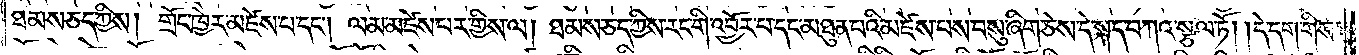ཐམས་ཅད་ཀྱིས། གྲོང་ཁྱེར་མཛེས་པ་དང༌། ལམ་མཛེས་པར་གྱིས་ལ། ཐམས་ཅད་ཀྱིས་རང་གི་འབྱོར་བ་དང་མཐུན་པའི་མཛེས་པས་བསུ་ཞིག་ཅེས་དེ་སྐད་བཀའ་སྩལ་ཏོ། །དེ་དག་གིས་
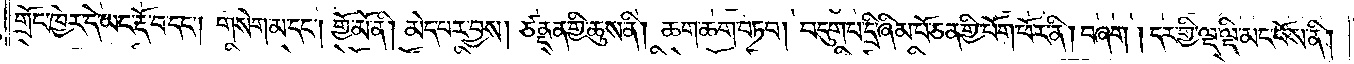གྲོང་ཁྱེར་དེ་ཡང་རྡོ་བ་དང༌། གསེག་མ་དང༌། གྱོ་མོ་ནི། མེད་པར་བྱས། ཙནྡན་གྱི་ཆུས་ནི། ཆག་ཆག་བཏབ། བདུག་པ་དྲི་ཞིམ་པོ་ཅན་གྱི་ཕོག་ཕོར་ནི། བཞག །དར་གྱི་ལྡ་ལྡི་མང་པོས་ནི།
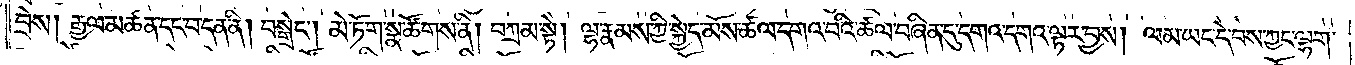བྲེས། རྒྱལ་མཚན་དང་བ་དན་ནི། བསྒྲེང༌། མེ་ཏོག་སྣ་ཚོགས་ནི། བཀྲམ་སྟེ། ལྷ་རྣམས་ཀྱིས་སྐྱེད་མོས་ཚལ་དགའ་བའི་ཚལ་བཞིན་དུ་དགའ་དགའ་ལྟར་བྱས། ལམ་ཡང་དེ་བས་ཀྱང་ལྷག་
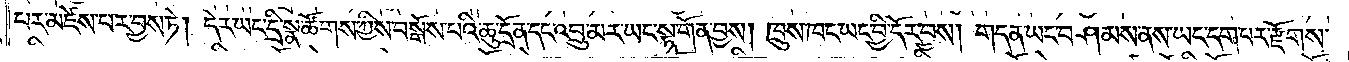པར་མཛེས་པར་བྱས་ཏེ། དེར་ཡང་དྲི་སྣ་ཚོགས་ཀྱིས་བསྒོས་པའི་ཆུ་དྲོན་དང་འབྲུ་མར་ཡང་སྟ་གོན་བྱས། ཁྲུས་ཁང་ཡང་བྱི་དོར་བས། གདན་ཡང་བཤམས་ནས་ཡང་དག་པར་རྫོགས་
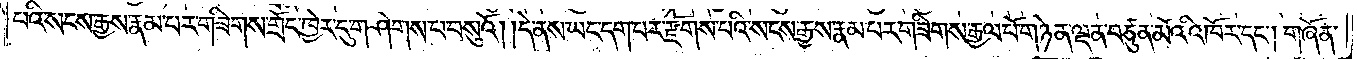པའི་སངས་རྒྱས་རྣམ་པར་གཟིགས་གྲོང་ཁྱེར་དུ་གཤེགས་པ་བསུའོ། །དེ་ནས་ཡང་དག་པར་རྫོགས་པའི་སངས་རྒྱས་རྣམ་པར་གཟིགས་རྒྱལ་པོ་གཉེན་ལྡན་བཙུན་མོའི་འཁོར་བ་དང༌། གཞོན་
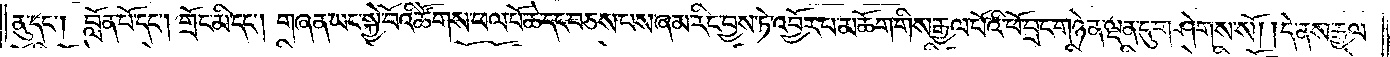ནུ་དང༌། བློན་པོ་དང༌། གྲོང་མི་དང༌། གཞན་ཡང་སྐྱེ་བོའི་ཚོགས་ཕལ་པོ་ཆེ་དང་བཅས་པས་ཞམ་རིང་བྱས་ཏེ་འབྱོར་པ་མཆོག་གི་རྒྱལ་པོའི་ཕོ་བྲང་གཉེན་ལྡན་དང་གཤེགས་སོ། །དེ་ནས་རྒྱལ་
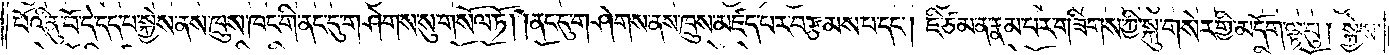པོའི་ནུ་བོ་དེ་དད་པ་སྐྱེས་ནས་ཁྲུས་ཁང་གི་ནང་དུ་གཤེགས་སུ་གསོལ་ཏོ། །ནང་དུ་གཤེགས་ནས་ཁྲུས་མཛད་པར་བརྩམས་པ་དང༌། ཇི་ཙམ་ན་རྣམ་པར་གཟིགས་ཀྱི་སྐུ་གསེར་གྱི་མདོག་ལྟ་བུ། སྐྱེས་
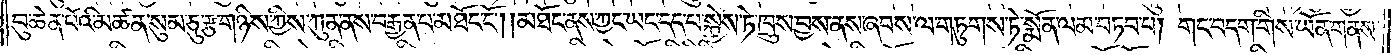བུ་ཆེན་པོའི་མཚན་སུམ་ཅུ་རྩ་གཉིས་ཀྱིས་ཀུན་ནས་བརྒྱན་པ་མཐོང་ངོ༌། །མཐོང་ནས་ཀྱང་ཡང་དད་པ་སྐྱེས་ཏེ་ཁྲུས་བྱས་ནས་ནས་ཞབས་ལ་གཏུགས་ཏེ་སྨོན་ལམ་བཏབ་པ། གང་བདག་གིས་ཡོན་གནས་
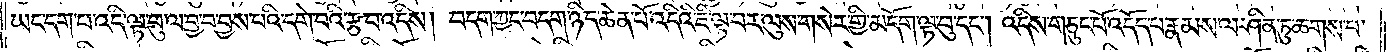ཡང་དག་པ་འདི་ལྟ་བུ་ལ་བྱ་བ་བྱས་པའི་དགེ་བའི་རྩ་བ་འདིས། བདག་ཀྱང་བདག་ཉིད་ཆེན་པོ་འདིའི་ཇི་ལྟ་བར་ལུས་གསེར་གྱི་མདོག་ལྟ་བུ་དང༌། འདིས་གཅུང་པོ་འདོད་པ་རྣམས་ལ་ཤིན་ཏུ་ཆགས་པ་
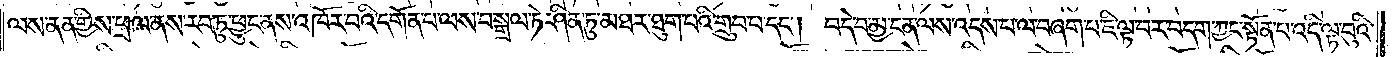ལས་ནན་གྱིས་ཕྲལ་ནས་རབ་ཏུ་ཕྱུང་ནས་འཁོར་བའི་དགོན་པ་ལས་བསྒྲལ་ཏེ་ཤིན་ཏུ་མཐར་ཐུག་པའི་གྲུབ་པ་དང༌། བདེ་བ་མྱ་ངན་ལས་འདས་པ་ལ་བཞག་པ་ཇི་ལྟར་བར་བདག་ཀྱང་སྟོན་པ་འདི་ལྟ་བུའི་
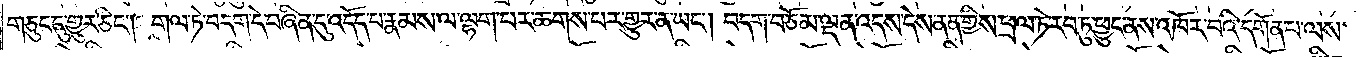གཅུང་དུ་གྱུར་ཅིང༌། གལ་ཏེ་བདག་དེ་བཞིན་དུ་འདོད་པ་རྣམས་ལ་ལྷག་པར་ཆགས་པར་གྱུར་ན་ཡང༌། བདག་བཅོམ་ལྡན་འདས་དེས་ནན་གྱིས་ཕྲལ་ཏེ་རབ་ཏུ་ཕྱུང་ནས་འཁོར་བའི་དགོན་པ་ལས་
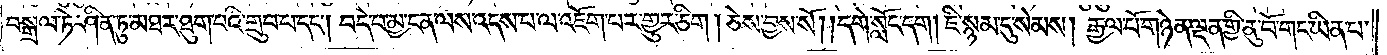བསྒྲལ་ཏེ་ཤིན་ཏུ་མཐར་ཐུག་པའི་གྲུབ་པ་དང༌། བདེ་བ་མྱ་ངན་ལས་འདས་པ་ལ་འཇོག་པར་གྱུར་ཅིག །ཅེས་བྱས་སོ། །དགེ་སློང་དག །ཇི་སྙམ་དུ་སེམས། རྒྱལ་པོ་གཉེན་ལྡན་གྱི་ནུ་བོ་གང་ཡིན་པ་
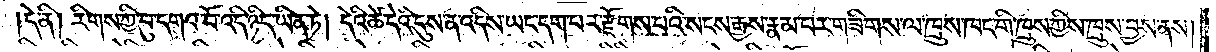དེ་ནི། རིགས་ཀྱི་བུ་དགའ་བོ་འདི་ཉིད་ཡིན་ཏེ། དེའི་ཚེ་དེའི་དུས་ན་འདིས་ཡང་དག་པར་རྫོགས་པའི་སངས་རྒྱས་རྣམ་པར་གཟིགས་ལ་ཁྲུས་ཁང་གི་ཁྲུས་ཀྱིས་ཁྲུས་བྱས་ནས།
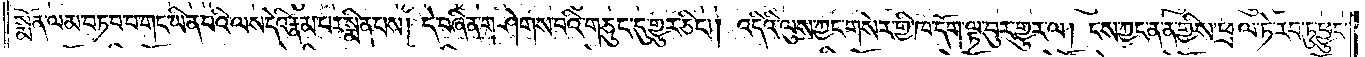སྨོན་ལམ་བཏབ་པ་གང་ཡིན་པའི་ལས་དེའི་རྣམ་པར་སྨིན་པས། དེ་བཞིན་གཤེགས་པའི་གཅུང་དུ་གྱུར་ཅིང༌། འདིའི་ལུས་ཀྱང་གསེར་གྱི་ཁ་དོག་ལྟ་བུར་གྱུར་ལ། ངས་ཀྱང་ན་ན་གྱིས་ཕྲལ་ཏེ་རབ་ཏུ་ཕྱུང་
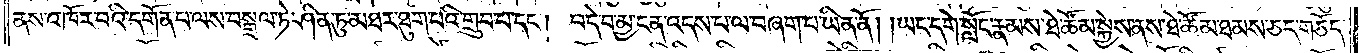ནས་འཁོར་བའི་དགོན་པ་ལས་བསྒྲལ་ཏེ་ཤིན་ཏུ་མཐར་ཐུག་པའི་གྲུབ་པ་དང༌། བདེ་བ་མྱ་ངན་འདས་པ་ལ་བཞག་པ་ཡིན་ནོ། །ཡང་དགེ་སློང་རྣམས་ཐེ་ཚོམ་སྐྱེས་ནས་ཐེ་ཚོམ་ཐམས་ཅད་གཅོད་
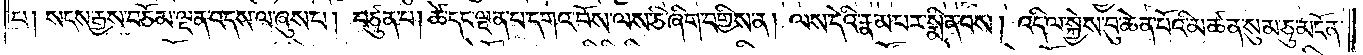པ། སངས་རྒྱས་བཅོམ་ལྡན་འདས་ལ་ཞུས་པ། བཙུན་པ། ཚེ་དང་ལྡན་པ་དགའ་བོས་ལས་ཅི་ཞིག་བགྱིས་ན། ལས་དེའི་རྣམ་པར་སྨིན་པས། འདི་ལ་སྐྱེས་བུ་ཆེན་པོའི་མཚན་སུམ་ཅུ་མངོན་
